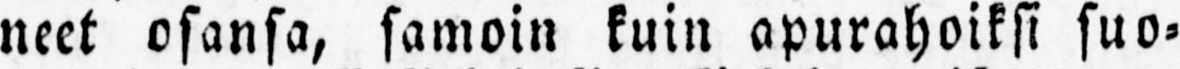neet osansa, samoin kuin apurahoiksi suo-
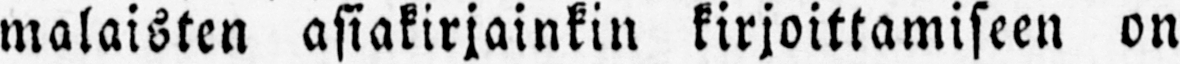malaisten asiakirjainkin kirjoittamiseen on
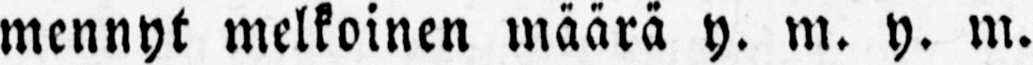mennyt melkoinen määrä y. m. y. m.
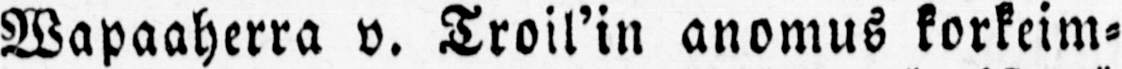Wapaaherra v. Troil’in anomus korkeim-
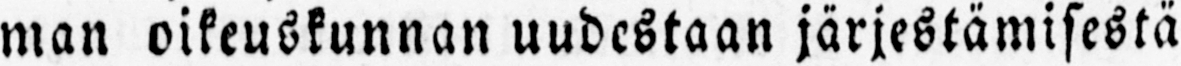man oikeuskunnan uudestaan järjestämisestä
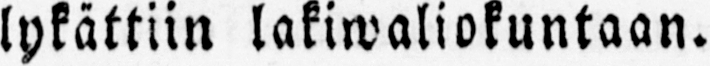lykättiin lakiwaliokuntaan.
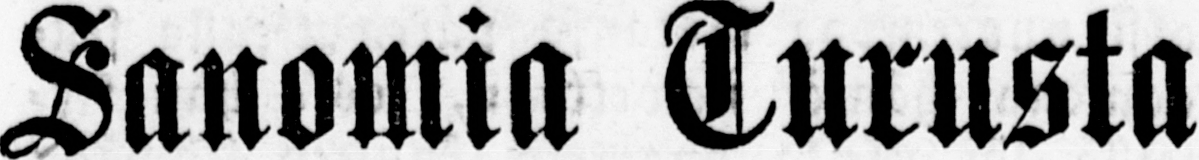Sanomia Turusta
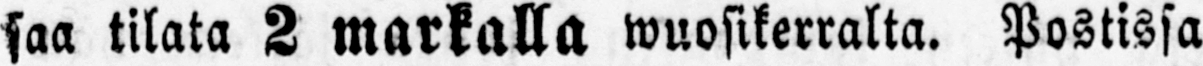saa tilata 2 markalla wuosikerralta. Postissa
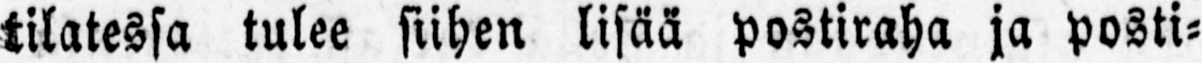tilatessa tulee siihen lisää postiraha ja posti-
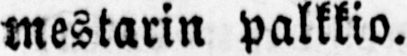mestarin palkkio.
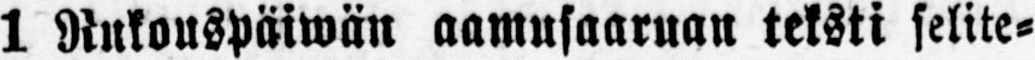1 Rukouspäiwän aamusaaruan teksti selite-
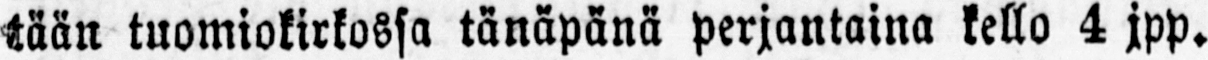tään tuomiokirkossa tänäpänä perjantaina kello 4 jpp.
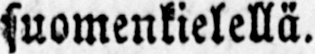suomenkielellä.
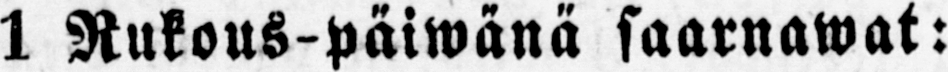1 Rukous-päiwänä saarnawat:
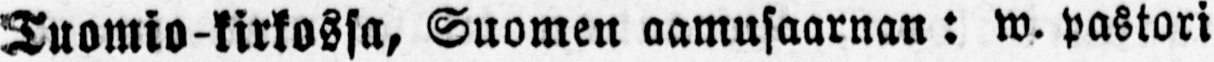Tuomio-kirkossa, Suomen aamusaarnan: w. pastori
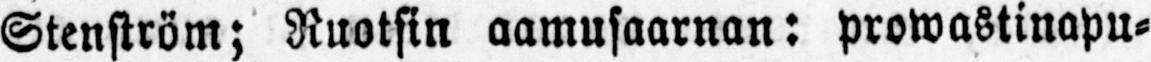Stenström; Ruotsin aamusaarnan: prowastinapu-
